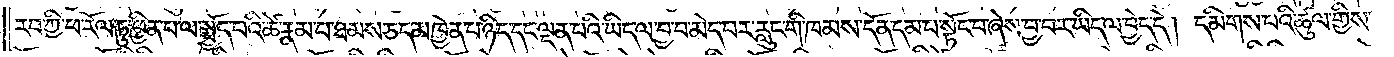རབ་ཀྱི་ཕ་རོལ་ཏུ་ཕྱིན་པ་ལ་སྤྱོད་པའི་ཚེ་རྣམ་པ་ཐམས་ཅད་མཁྱེན་པ་ཉིད་དང་ལྡན་པའི་ཡིད་ལ་བྱ་བ་མེད་པར་རླུང་གི་ཁམས་དོན་དམ་པ་སྟོང་པ་ཞེས་བྱ་བར་ཡིད་ལ་བྱེད་དེ། དམིགས་པའི་ཚུལ་གྱིས་
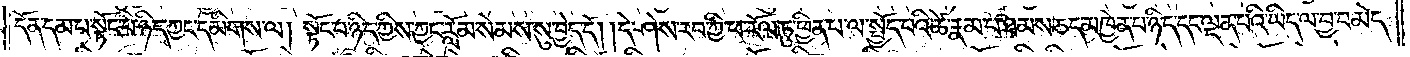དོན་དམ་པ་སྟོང་པ་ཉིད་ཀྱང་དམིགས་ལ། སྟོང་པ་ཉིད་ཀྱིས་ཀྱང་རློམ་སེམས་སུ་བྱེད་དོ། །དེ་ཤེས་རབ་ཀྱི་ཕ་རོལ་ཏུ་ཕྱིན་པ་ལ་སྤྱོད་པའི་ཚེ་རྣམ་པ་ཐམས་ཅད་མཁྱེན་པ་ཉིད་དང་ལྡན་པའི་ཡིད་ལ་བྱ་བ་མེད་
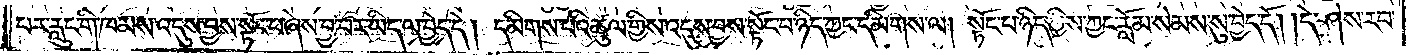པར་རླུང་གི་ཁམས་འདུས་བྱས་སྟོང་པ་ཞེས་བྱ་བར་ཡིད་ལ་བྱེད་དེ། དམིགས་པའི་ཚུལ་གྱིས་འདུས་བྱས་སྟོང་པ་ཉིད་ཀྱང་དམིགས་ལ། སྟོང་པ་ཉིད་ཀྱིས་ཀྱང་རློམ་སེམས་སུ་བྱེད་དོ། །དེ་ཤེས་རབ་
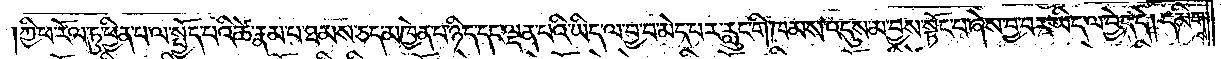ཀྱི་ཕ་རོལ་ཏུ་ཕྱིན་པ་ལ་སྤྱོད་པའི་ཚེ་རྣམ་པ་ཐམས་ཅད་མཁྱེན་པ་ཉིད་དང་ལྡན་པའི་ཡིད་ལ་བྱ་བ་མེད་པར་རླུང་གི་ཁམས་འདུས་མ་བྱས་སྟོང་པ་ཞེས་བྱ་བར་ཡིད་ལ་བྱེད་དེ། དམིགས་
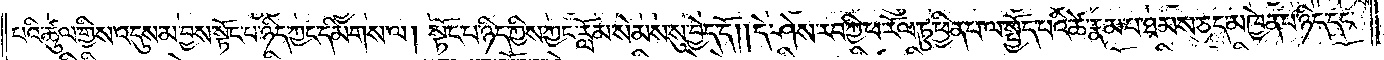པའི་ཚུལ་གྱིས་འདུས་མ་བྱས་སྟོང་པ་ཉིད་ཀྱང་དམིགས་ལ། སྟོང་པ་ཉིད་ཀྱིས་ཀྱང་རློམ་སེམས་སུ་བྱེད་དོ། །དེ་ཤེས་རབ་ཀྱི་ཕ་རོལ་ཏུ་ཕྱིན་པ་ལ་སྤྱོད་པའི་ཚེ་རྣམ་པ་ཐམས་ཅད་མཁྱེན་པ་ཉིད་དང་
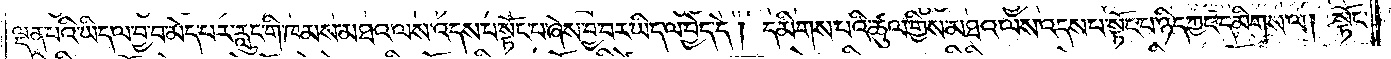ལྡན་པའི་ཡིད་ལ་བྱ་བ་མེད་པར་རླུང་གི་ཁམས་མཐའ་ལས་འདས་པ་སྟོང་པ་ཞེས་བྱ་བར་ཡིད་ལ་བྱེད་དེ། དམིགས་པའི་ཚུལ་གྱིས་མཐའ་ལས་འདས་པ་སྟོང་པ་ཉིད་ཀྱང་དམིགས་ལ། སྟོང་
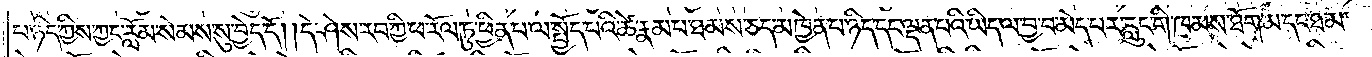པ་ཉིད་ཀྱིས་ཀྱང་རློམ་སེམས་སུ་བྱེད་དོ། །དེ་ཤེས་རབ་ཀྱི་ཕ་རོལ་ཏུ་ཕྱིན་པ་ལ་སྤྱོད་པའི་ཚེ་རྣམ་པ་ཐམས་ཅད་མཁྱེན་པ་ཉིད་དང་ལྡན་པའི་ཡིད་ལ་བྱ་བ་མེད་པར་རླུང་གི་ཁམས་ཐོག་མ་དང་ཐ་མ་
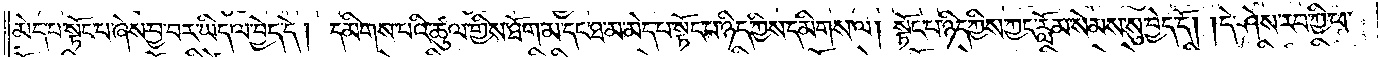མེད་པ་སྟོང་པ་ཞེས་བྱ་བར་ཡིད་ལ་བྱེད་དེ། དམིགས་པའི་ཚུལ་གྱིས་ཐོག་མ་དང་ཐ་མ་མེད་པ་སྟོང་པ་ཉིད་ཀྱིས་དམིགས་ལ། སྟོང་པ་ཉིད་ཀྱིས་ཀྱང་རློམ་སེམས་སུ་བྱེད་དོ། །དེ་ཤེས་རབ་ཀྱི་ཕ་
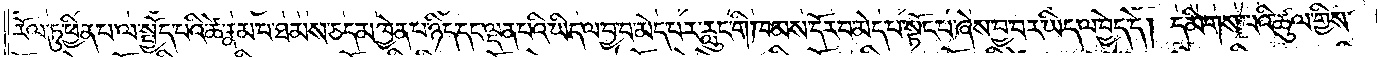རོལ་ཏུ་ཕྱིན་པ་ལ་སྤྱོད་པའི་ཚེ་རྣམ་པ་ཐམས་ཅད་མཁྱེན་པ་ཉིད་དང་ལྡན་པའི་ཡིད་ལ་བྱ་བ་མེད་པར་རླུང་གི་ཁམས་དོར་བ་མེད་པ་སྟོང་པ་ཞེས་བྱ་བར་ཡིད་ལ་བྱེད་དེ། དམིགས་པའི་ཚུལ་གྱིས་
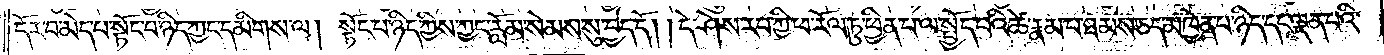དོར་བ་མེད་པ་སྟོང་པ་ཉིད་ཀྱང་དམིགས་ལ། སྟོང་པ་ཉིད་ཀྱིས་ཀྱང་རློམ་སེམས་སུ་བྱེད་དོ། །དེ་ཤེས་རབ་ཀྱི་ཕ་རོལ་ཏུ་ཕྱིན་པ་ལ་སྤྱོད་པའི་ཚེ་རྣམ་པ་ཐམས་ཅད་མཁྱེན་པ་ཉིད་དང་ལྡན་པའི་
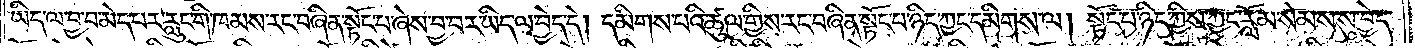ཡིད་ལ་བྱ་བ་མེད་པར་རླུང་གི་ཁམས་རང་བཞིན་སྟོང་པ་ཞེས་བྱ་བར་ཡིད་ལ་བྱེད་དེ། དམིགས་པའི་ཚུལ་གྱིས་རང་བཞིན་སྟོང་པ་ཉིད་ཀྱང་དམིགས་ལ། སྟོང་པ་ཉིད་ཀྱིས་ཀྱང་རློམ་སེམས་སུ་བྱེད་
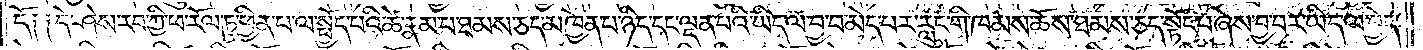དོ༑ ༑དེ་ཤེས་རབ་ཀྱི་ཕ་རོལ་ཏུ་ཕྱིན་པ་ལ་སྤྱོད་པའི་ཚེ་རྣམ་པ་ཐམས་ཅད་མཁྱེན་པ་ཉིད་དང་ལྡན་པའི་ཡིད་ལ་བྱ་བ་མེད་པར་རླུང་གི་ཁམས་ཆོས་ཐམས་ཅད་སྟོང་པ་ཞེས་བྱ་བར་ཡིད་ལ་བྱེད་
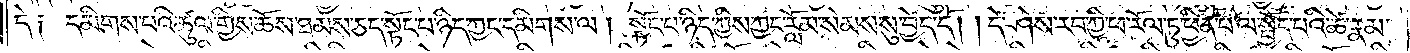དེ༑ ༑དམིགས་པའི་ཚུལ་གྱིས་ཆོས་ཐམས་ཅད་སྟོང་པ་ཉིད་ཀྱང་དམིགས་ལ། སྟོང་པ་ཉིད་ཀྱིས་ཀྱང་རློམ་སེམས་སུ་བྱེད་དོ། །དེ་ཤེས་རབ་ཀྱི་ཕ་རོལ་ཏུ་ཕྱིན་པ་ལ་སྤྱོད་པའི་ཚེ་རྣམ་
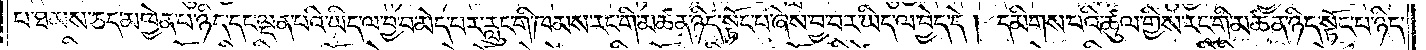པ་ཐམས་ཅད་མཁྱེན་པ་ཉིད་དང་ལྡན་པའི་ཡིད་ལ་བྱ་བ་མེད་པར་ལུང་གི་ཁམས་རང་གི་མཚན་ཉིད་སྟོང་པ་ཞེས་བྱ་བར་ཡིད་ལ་བྱེད་དེ། དམིགས་པའི་ཚུལ་གྱིས་རང་གི་མཚན་ཉིད་སྟོང་པ་ཉིད་
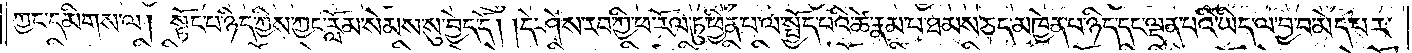ཀྱང་དམིགས་ལ། སྟོང་པ་ཉིད་ཀྱིས་ཀྱང་རློམ་སེམས་སུ་བྱེད་དོ། །དེ་ཤེས་རབ་ཀྱི་ཕ་རོལ་ཏུ་ཕྱིན་པ་ལ་སྤྱོད་པའི་ཚེ་རྣམ་པ་ཐམས་ཅད་མཁྱེན་པ་ཉིད་དང་ལྡན་པའི་ཡིད་ལ་བྱ་བ་མེད་པར་
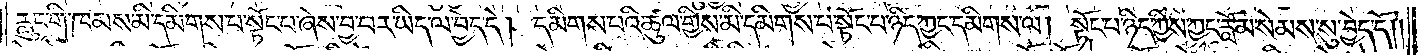རླུང་གི་ཁམས་མི་དམིགས་པ་སྟོང་པ་ཞེས་བྱ་བར་ཡིད་ལ་བྱེད་དེ། དམིགས་པའི་ཚུལ་གྱིས་མི་དམིགས་པ་སྟོང་པ་ཉིད་ཀྱང་དམིགས་ལ། སྟོང་པ་ཉིད་ཀྱིས་ཀྱང་རློམ་སེམས་སུ་བྱེད་དོ༎
